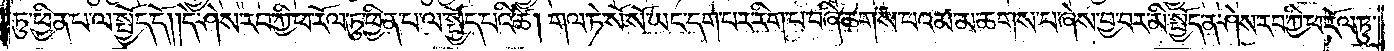ཏུ་ཕྱིན་པ་ལ་སྤྱོད་དོ། །དེ་ཤེས་རབ་ཀྱི་ཕ་རོལ་ཏུ་ཕྱིན་པ་ལ་སྤྱོད་པའི་ཚེ། གལ་ཏེ་སོ་སོ་ཡང་དག་པར་རིག་པ་བཞི་ཆགས་པའམ་མ་ཆགས་པ་ཞེས་བྱ་བར་མི་སྤྱོད་ན་ཤེས་རབ་ཀྱི་ཕ་རོལ་ཏུ་
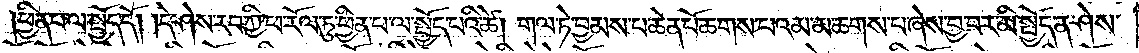ཕྱིན་པ་ལ་སྤྱོད་དོ། །དེ་ཤེས་རབ་ཀྱི་ཕ་རོལ་ཏུ་ཕྱིན་པ་ལ་སྤྱོད་པའི་ཚེ། གལ་ཏེ་བྱམས་པ་ཆེན་པོ་ཆགས་པའམ་མ་ཆགས་པ་ཞེས་བྱ་བར་མི་སྤྱོད་ན་ཤེས་
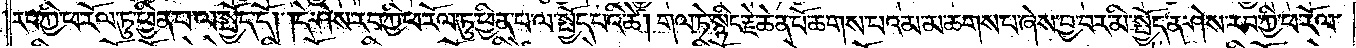རབ་ཀྱི་ཕ་རོལ་ཏུ་ཕྱིན་པ་ལ་སྤྱོད་དོ། །དེ་ཤེས་རབ་ཀྱི་ཕ་རོལ་ཏུ་ཕྱིན་པ་ལ་སྤྱོད་པའི་ཚེ། གལ་ཏེ་སྙིང་རྗེ་ཆེན་པོ་ཆགས་པའམ་མ་ཆགས་པ་ཞེས་བྱ་བར་མི་སྤྱོད་ན་ཤེས་རབ་ཀྱི་ཕ་རོལ་
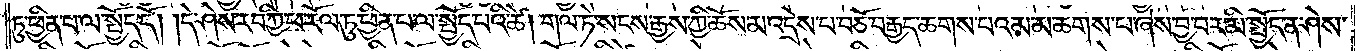ཏུ་ཕྱིན་པ་ལ་སྤྱོད་དོ། །དེ་ཤེས་རབ་ཀྱི་ཕ་རོལ་ཏུ་ཕྱིན་པ་ལ་སྤྱོད་པའི་ཚེ། གལ་ཏེ་སངས་རྒྱས་ཀྱི་ཆོས་མ་འདྲེས་པ་བཅོ་བརྒྱད་ཆགས་པའམ་མ་ཆགས་པ་ཞེས་བྱ་བར་མི་སྤྱོད་ན་ཤེས་
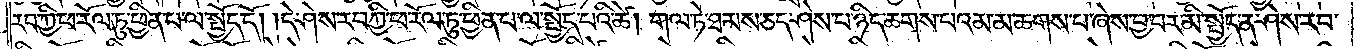རབ་ཀྱི་ཕ་རོལ་ཏུ་ཕྱིན་པ་ལ་སྤྱོད་དོ། །དེ་ཤེས་རབ་ཀྱི་ཕ་རོལ་ཏུ་ཕྱིན་པ་ལ་སྤྱོད་པའི་ཚེ། གལ་ཏེ་ཐམས་ཅད་ཤེས་པ་ཉིད་ཆགས་པའམ་མ་ཆགས་པ་ཞེས་བྱ་བར་མི་སྤྱོད་ན་ཤེས་རབ་
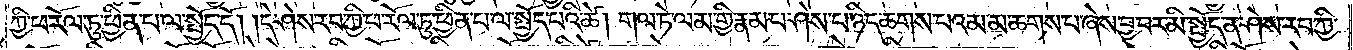ཀྱི་ཕ་རོལ་ཏུ་ཕྱིན་པ་ལ་སྤྱོད་དོ། །དེ་ཤེས་རབ་ཀྱི་ཕ་རོལ་ཏུ་ཕྱིན་པ་ལ་སྤྱོད་པའི་ཚེ། གལ་ཏེ་ལམ་གྱི་རྣམ་པ་ཤེས་པ་ཉིད་ཆགས་པའམ་མ་ཆགས་པ་ཞེས་བྱ་བར་མི་སྤྱོད་ན་ཤེས་རབ་ཀྱི་
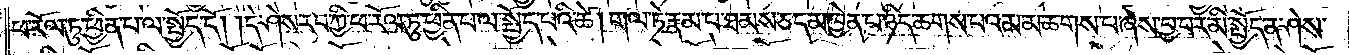ཕ་རོལ་ཏུ་ཕྱིན་པ་ལ་སྤྱོད་དོ། །དེ་ཤེས་རབ་ཀྱི་ཕ་རོལ་ཏུ་ཕྱིན་པ་ལ་སྤྱོད་པའི་ཚེ། གལ་ཏེ་རྣམ་པ་ཐམས་ཅད་མཁྱེན་པ་ཉིད་ཆགས་པའམ་མ་ཆགས་པ་ཞེས་བྱ་བར་མི་སྤྱོད་ན་ཤེས་
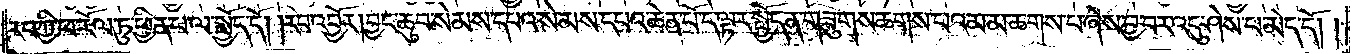རབ་ཀྱི་ཕ་རོལ་ཏུ་ཕྱིན་པ་ལ་སྤྱོད་དོ། །རབ་འབྱོར། བྱང་ཆུབ་སེམས་དཔའ་སེམས་དཔའ་ཆེན་པོ་དེ་ལྟར་སྤྱོད་ན་གཟུགས་ཆགས་པའམ་མ་ཆགས་པ་ཞེས་བྱ་བར་འདུ་ཤེས་པ་མེད་དོ། །
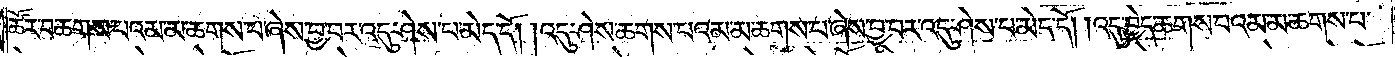ཚོར་བ་ཆགས་པའམ་མ་ཆགས་པ་ཞེས་བྱ་བར་འདུ་ཤེས་པ་མེད་དོ། །འདུ་ཤེས་ཆགས་པའམ་མ་ཆགས་པ་ཞེས་བྱ་བར་འདུ་ཤེས་པ་མེད་དོ། །འདུ་བྱེད་ཆགས་པའམ་མ་ཆགས་པ་
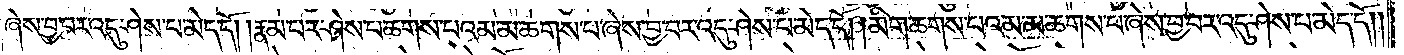ཞེས་བྱ་བར་འདུ་ཤེས་པ་མེད་དོ། །རྣམ་པར་ཤེས་པ་ཆགས་པའམ་མ་ཆགས་པ་ཞེས་བྱ་བར་འདུ་ཤེས་པ་མེད་དོ། །མིག་ཆགས་པའམ་མ་ཆགས་པ་ཞེས་བྱ་བར་འདུ་ཤེས་པ་མེད་དོ། །
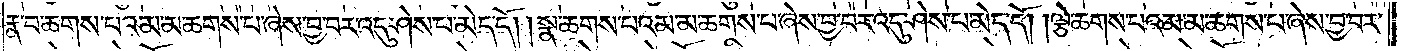རྣ་བ་ཆགས་པའམ་མ་ཆགས་པ་ཞེས་བྱ་བར་འདུ་ཤེས་པ་མེད་དོ། །སྣ་ཆགས་པའམ་མ་ཆགས་པ་ཞེས་བྱ་བར་འདུ་ཤེས་པ་མེད་དོ། །ལྕེ་ཆགས་པའམ་མ་ཆགས་པ་ཞེས་བྱ་བར་
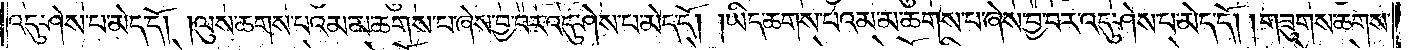འདུ་ཤེས་པ་མེད་དོ། །ལུས་ཆགས་པའམ་མ་ཆགས་པ་ཞེས་བྱ་བར་འདུ་ཤེས་པ་མེད་དོ། །ཡིད་ཆགས་པའམ་མ་ཆགས་པ་ཞེས་བྱ་བར་འདུ་ཤེས་པ་མེད་དོ། །གཟུགས་ཆགས་
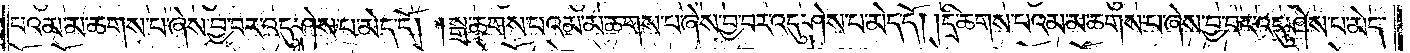པའམ་མ་ཆགས་པ་ཞེས་བྱ་བར་འདུ་ཤེས་པ་མེད་དོ། །སྒྲ་ཆགས་པའམ་མ་ཆགས་པ་ཞེས་བྱ་བར་འདུ་ཤེས་པ་མེད་དོ། །དྲི་ཆགས་པའམ་མ་ཆགས་པ་ཞེས་བྱ་བར་འདུ་ཤེས་པ་མེད་
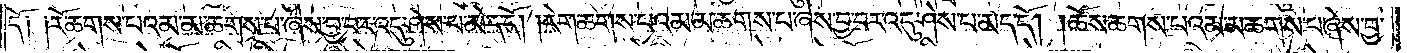དོ༑ ༑རོ་ཆགས་པའམ་མ་ཆགས་པ་ཞེས་བྱ་བར་འདུ་ཤེས་པ་མེད་དོ། །རེག་ཆགས་པའམ་མ་ཆགས་པ་ཞེས་བྱ་བར་འདུ་ཤེས་པ་མེད་དོ། །ཆོས་ཆགས་པའམ་མ་ཆགས་པ་ཞེས་བྱ་
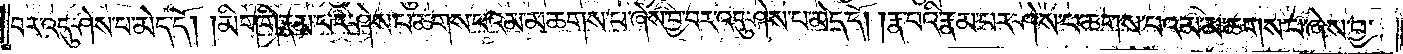བར་འདུ་ཤེས་པ་མེད་དོ། །མིག་གི་རྣམ་པར་ཤེས་པ་ཆགས་པའམ་མ་ཆགས་པ་ཞེས་བྱ་བར་འདུ་ཤེས་པ་མེད་དོ། །རྣ་བའི་རྣམ་པར་ཤེས་པ་ཆགས་པའམ་མ་ཆགས་པ་ཞེས་བྱ་
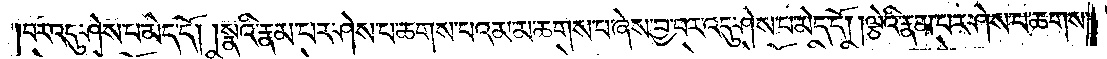བར་འདུ་ཤེས་པ་མེད་དོ། །སྣའི་རྣམ་པར་ཤེས་པ་ཆགས་པའམ་མ་ཆགས་པ་ཞེས་བྱ་བར་འདུ་ཤེས་པ་མེད་དོ། །ལྕེའི་རྣམ་པར་ཤེས་པ་ཆགས་
